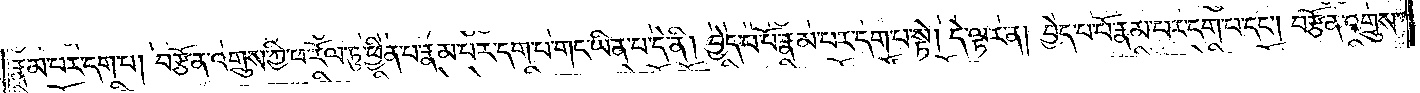རྣམ་པར་དག་པ། བརྩོན་འགྲུས་ཀྱི་ཕ་རོལ་ཏུ་ཕྱིན་པ་རྣམ་པར་དག་པ་གང་ཡིན་པ་དེ་ནི། བྱེད་པ་པོ་རྣམ་པར་དག་པ་སྟེ། དེ་ལྟར་ན། བྱེད་པ་པོ་རྣམ་པར་དག་པ་དང༌། བརྩོན་འགྲུས་
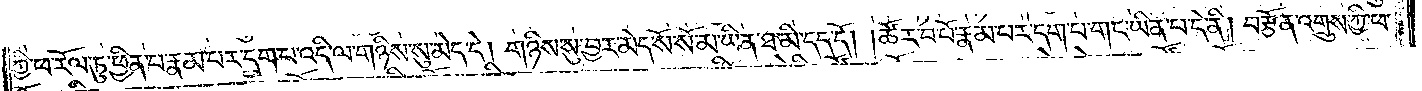ཀྱི་ཕ་རོལ་ཏུ་ཕྱིན་པ་རྣམ་པར་དག་པ་འདི་ལ་གཉིས་སུ་མེད་དེ། གཉིས་སུ་བྱར་མེད་སོ་སོ་མ་ཡིན་ཐ་མི་དད་དོ། །ཚོར་བ་རྣམ་པར་དག་པ་གང་ཡིན་པ་དེ་ནི། བརྩོན་འགྲུས་ཀྱི་ཕ་
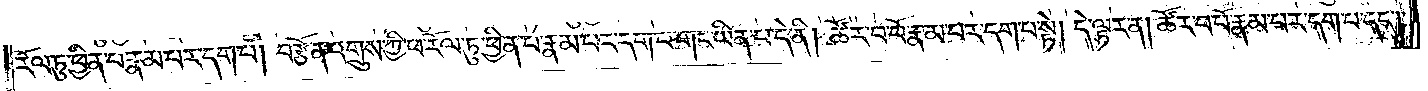རོལ་ཏུ་ཕྱིན་པ་རྣམ་པར་དག་པ། བརྩོན་འགྲུས་ཀྱི་ཕ་རོལ་ཏུ་ཕྱིན་པ་རྣམ་པར་དག་གང་ཡིན་པ་དེ་ནི། ཚོར་བ་རྣམ་པར་དག་པ་སྟེ། དེ་ལྟར་ན། ཚོར་བ་པོ་རྣམ་པར་དག་པ་དང༌།
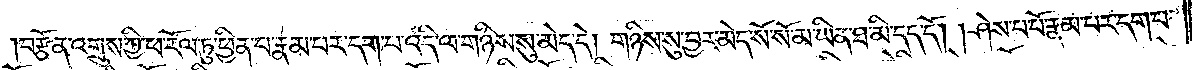བརྩོན་འགྲུས་ཀྱི་ཕ་རོལ་ཏུ་ཕྱིན་པ་རྣམ་པར་དག་པ་འདི་ལ་གཉིས་སུ་མེད་དེ། གཉིས་སུ་བྱར་མེད་སོ་སོ་མ་ཡིན་ཐ་མི་དད་དོ། །ཤེས་པ་པོ་རྣམ་པར་དག་པ་
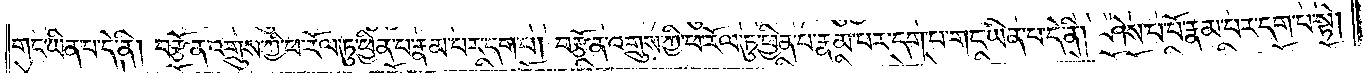གང་ཡིན་པ་དེ་ནི། བརྩོན་འགྲུས་ཀྱི་ཕ་རོལ་ཏུ་ཕྱིན་པ་རྣམ་པར་དག་པ། བརྩོན་འགྲུས་ཀྱི་ཕ་རོལ་ཏུ་ཕྱིན་པ་རྣམ་པར་དག་པ་གང་ཡིན་པ་དེ་ནི། ཤེས་པ་པོ་རྣམ་པར་དག་པ་སྟེ།
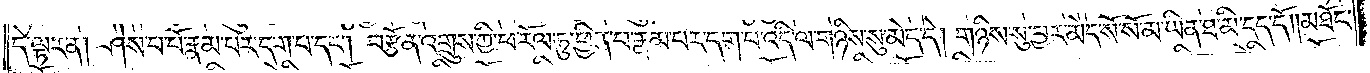དེ་ལྟར་ན། ཤེས་པ་པོ་རྣམ་པར་དག་པ་དང༌། བརྩོན་འགྲུས་ཀྱི་ཕ་རོལ་ཏུ་ཕྱིན་པ་རྣམ་པར་དག་པ་འདི་ལ་གཉིས་སུ་མེད་དེ། གཉིས་སུ་བྱར་མེད་སོ་སོ་མ་ཡིན་ཐ་མི་དད་དོ། །མཐོང་
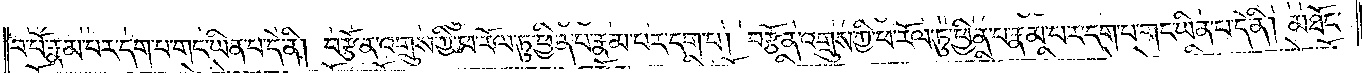བ་པོ་རྣམ་པར་དག་པ་གང་ཡིན་པ་དེ་ནི། བརྩོན་འགྲུས་ཀྱི་ཕ་རོལ་ཏུ་ཕྱིན་པ་རྣམ་པར་དག་པ། བརྩོན་འགྲུས་ཀྱི་ཕ་རོལ་ཏུ་ཕྱིན་པ་རྣམ་པར་དག་པ་གང་ཡིན་པ་དེ་ནི། མཐོང་
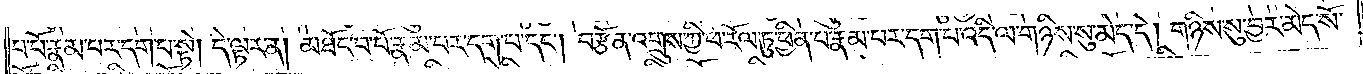བ་པོ་རྣམ་པར་དག་པ་སྟེ། དེ་ལྟར་ན། མཐོང་བ་པོ་རྣམ་པར་དག་པ་དང༌། བརྩོན་འགྲུས་ཀྱི་ཕ་རོལ་ཏུ་ཕྱིན་པ་རྣམ་པར་དག་པ་འདི་ལ་གཉིས་སུ་མེད་དེ། གཉིས་སུ་བྱར་མེད་སོ་
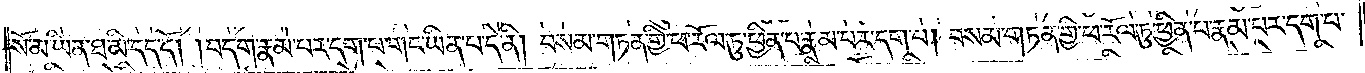སོ་མ་ཡིན་ཐ་མི་དད་དོ། །བདག་རྣམ་པར་དག་པ་གང་ཡིན་པ་དེ་ནི། བསམ་གཏན་གྱི་ཕ་རོལ་ཏུ་ཕྱིན་པ་རྣམ་པར་དག་པ། བསམ་གཏན་གྱི་ཕ་རོལ་ཏུ་ཕྱིན་པ་རྣམ་པར་དག་པ་
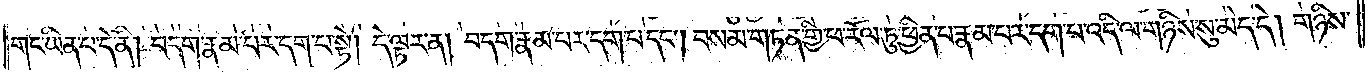གང་ཡིན་པ་དེ་ནི། བདག་རྣམ་པར་དག་པ་སྟེ། དེ་ལྟར་ན། བདག་རྣམ་པར་དག་པ་དང༌། བསམ་གཏན་གྱི་ཕ་རོལ་ཏུ་ཕྱིན་པ་རྣམ་པར་དག་པ་འདི་ལ་གཉིས་སུ་མེད་དེ། གཉིས་
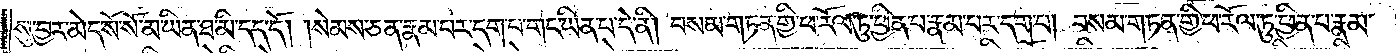སུ་བྱར་མེད་སོ་སོ་མ་ཡིན་ཐ་མི་དད་དོ། །སེམས་ཅན་རྣམ་པར་དག་པ་གང་ཡིན་པ་དེ་ནི། བསམ་གཏན་གྱི་ཕ་རོལ་ཏུ་ཕྱིན་པ་རྣམ་པར་དག། །བསམ་གཏན་གྱི་ཕ་རོལ་ཏུ་ཕྱིན་པ་རྣམ་
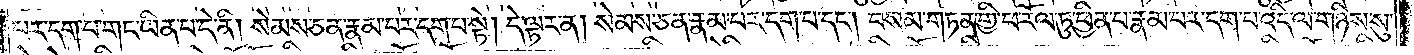པར་དག་གང་ཡིན་པ་དེ་ནི། སེམས་ཅན་རྣམ་པར་དག་པ་སྟེ། དེ་ལྟར་ན། སེམས་ཅན་རྣམ་པར་དག་པ་དང༌། བསམ་གཏན་གྱི་ཕ་རོལ་ཏུ་ཕྱིན་པ་རྣམ་པར་དག་པ་འདི་ལ་གཉིས་སུ་
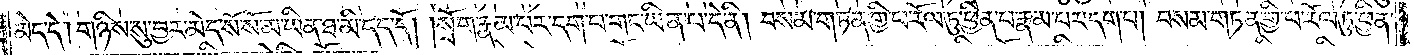མེད་དེ། གཉིས་སུ་བྱར་མེད་སོ་སོ་མ་ཡིན་ཐ་མི་དད་དོ། །སྲོག་རྣམ་པར་དག་པ་གང་ཡིན་པ་དེ་ནི། བསམ་གཏན་གྱི་ཕ་རོལ་ཏུ་ཕྱིན་པ་རྣམ་པར་དག་པ། བསམ་གཏན་གྱི་ཕ་རོལ་ཏུ་ཕྱིན་
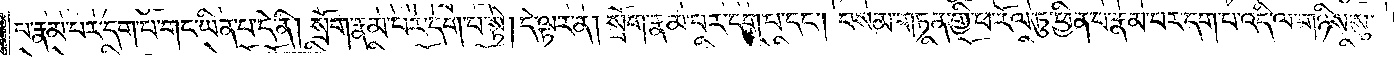པ་རྣམ་པར་དག་པ་གང་ཡིན་པ་དེ་ནི། སྲོག་རྣམ་པར་དག་པ་སྟེ། དེ་ལྟར་ན། སྲོག་རྣམ་པར་དག་པ་དང༌། བསམ་གཏན་གྱི་ཕ་རོལ་ཏུ་ཕྱིན་པ་རྣམ་པར་དག་པ་འདི་ལ་གཉིས་སུ་
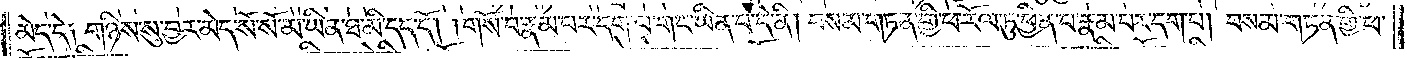མེད་དེ། གཉིས་སུ་བྱར་མེད་སོ་སོ་མ་ཡིན་ཐ་མི་དད་དོ། །གསོ་བ་རྣམ་པར་དག་པ་གང་ཡིན་པ་དེ་ནི། བསམ་གཏན་གྱི་ཕ་རོལ་ཏུ་ཕྱིན་པ་རྣམ་པར་དག་པ། བསམ་གཏན་གྱི་ཕ་
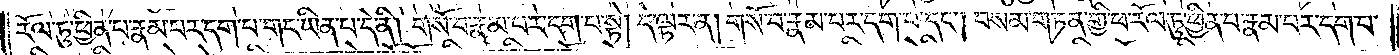རོལ་ཏུ་ཕྱིན་པ་རྣམ་པར་དག་པ་གང་ཡིན་པ་དེ་ནི། གསོ་བ་རྣམ་པར་དག་པ་སྟེ། དེ་ལྟར་ན། གསོ་བ་རྣམ་པར་དག་པ་དང༌། བསམ་གཏན་གྱི་ཕ་རོལ་ཏུ་ཕྱིན་པ་རྣམ་པར་དག་པ་
